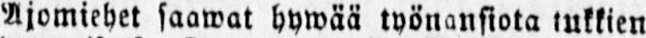Ajomiehet saawat hywää työnansiota tukkien
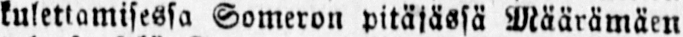kulettamisessa Someron pitäjässä Näärämäen
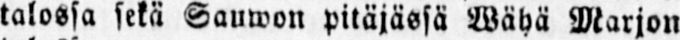talossa sekä Sauwon pitäjässä Wähä Marjon
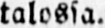talossa.
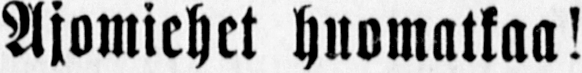Ajomiehet huomatkaa!
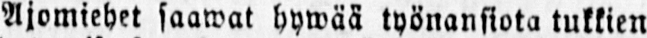Ajomiehet saawat hywää työnansiota tukkien
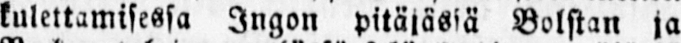kulettamisessa Ingan pitäjässä Bolstan ja
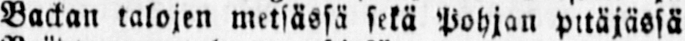Backan talojen metsässä sekä Pohjan pitäjässä
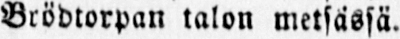Brödtorpan talon metsässä.
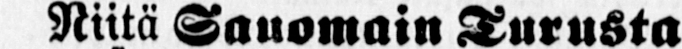Niitä Sauomain Turusta
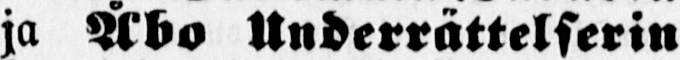ja Åbo Underrättelserin
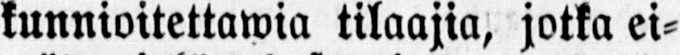kunnioitettawia tilaajia, jotka eiwä t wielä ole suorittaneet tämän
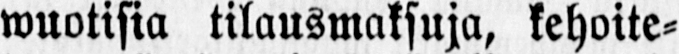wuotisia tilausmaksuja, kehoite-
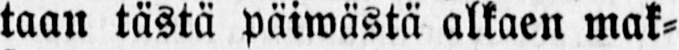taan tästä päiwästä alkaen mak-
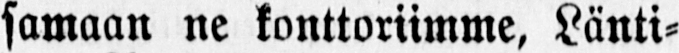samaan ne konttoriimme, Länti-
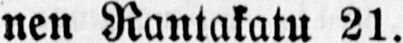nen Rantakatu 21.
